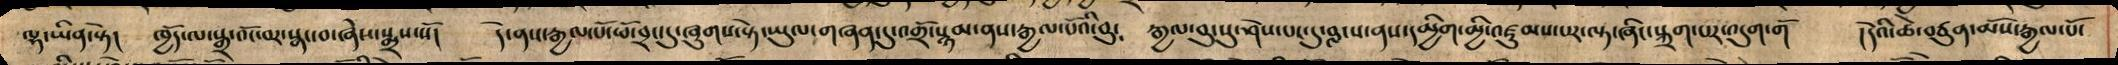ལྷ་ཡིན་སྟེ། ཁྱོད་ལ་སྒྲ་འོང་བར་སྣང་བ་ཞེས་སྨྲས་སོ། དེ་ནས་རྒྱལ་པོ་ཕོ་བྲང་དུ་ཞུགས་སྟེ་ཡུལ་གཞན་དུ་འགྲོ་སྙམ་ནས་རྒྱལ་པོའི་བུ་ རྒྱལ་བུ་སུ་ཤེས་པང་དུ་བླངས་ནས་དམྱིག་མྱི་འཛུམས་པར་ལྟ་ཞིང་སྐྲག་པར་འདུག་གོ །དེའི་ཚེ་བཙུན་མོས་རྒྱལ་པོ་
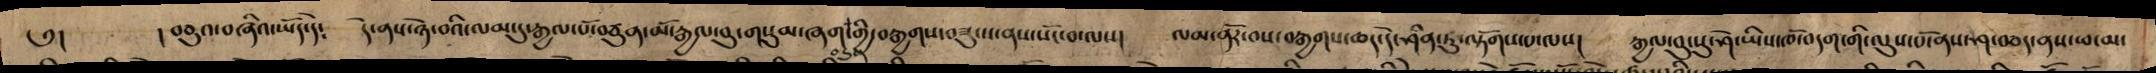༅། །བཅུའ་བཞིའ་ཡོད་དེ༴ དེ་ནས་ཉེ་བའི་ལམ་དུ་རྒྱལ་པོ་བཙུན་མོ་རྒྱལ་བུ་གསུམ་ཞག་གྱི་བརྒྱགས་བཟུངས་ནས་སོང་བ་ལས། ལམ་ནོར་བས་བརྒྱགས་ཆད་དེ་ཤིན་ཏུ་ལྟོགས་པ་ལས། རྒྱལ་བུ་སུ་ཤེ་ཡིས་ཁཽ་བདག་གི་ལུས་པོ་ནས་ཤ་བཅད་ནས་ཕ་མ་
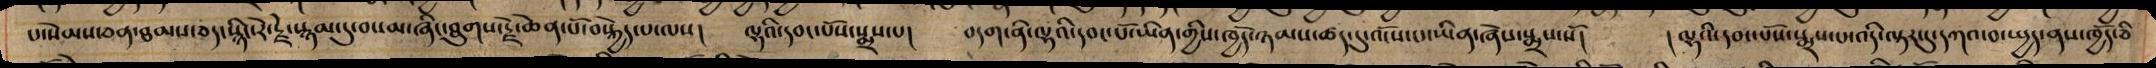པ་སེམས་ཅན་ཐམས་ཅད་སྙིང་རེ་རྗེ་སྙམ་དུ་བསམ་ཞིང་ཐུགས་རྗེ་ཆེན་པོ་བསྐྱེད་པ་ལས། ལྷའི་དབང་པོས་སྨྲས་པ། བདག་ནི་ལྷའི་དབང་པོ་ཡིན་གྱིས་ཁྱེད་ཉམས་ཚད་དུ་འོངས་པ་ཡིན་ཞེས་སྨྲས་སོ། །ལྷའི་དབང་པོས་སྨྲས་པ་འདི་ལྟར་དུ་དཀའ་བ་སྤྱད་ནས་ཁྱོད་ཅི
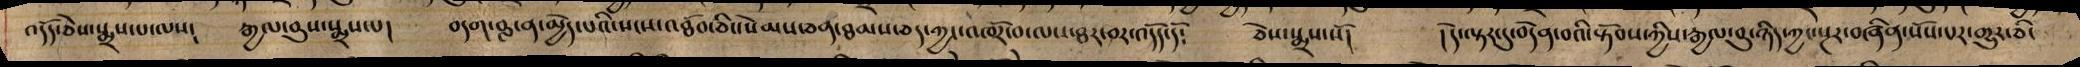འདོད་ཅེས་སྨྲས་པ་ལས༴ རྒྱལ་བུས་སྨྲས་པ། བདག་བླ་ན་མྱེད་པའི་སངས་འཐོབ་ཅིང་སེམས་ཅན་ཐམས་ཅད་ཀྱང་འཁོར་བ་ལས་ཐར་བར་འདོད་དོ༴ ཅེས་སྨྲས་སོ། །དེ་ལྟར་དུ་བདེན་བའི་སྟོབས་ཀྱིས་རྒྱལ་བུ་ཉིད་ཀྱང་སྔར་བཞིན་སོས་པར་གྱུར་ཅིང
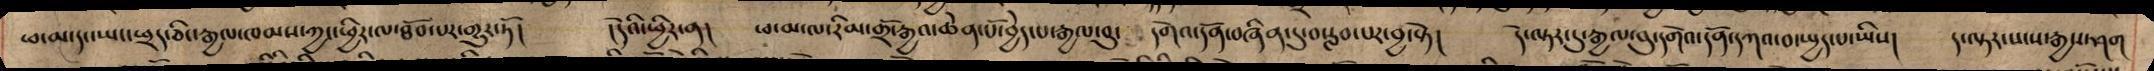ཕ་མ་དང་ཡང་ཕྲད་ཅིང་རྒྱལ་ཁམས་ཀྱང་ཕྱིར་ལ་ཐོབ་པར་གྱུར་ཏོ། །དེའི་ཕིུར་ན། ཕ་མ་ལ་རིམ་གྲོ་རྒྱའ་ཆེན་པོ་བྱེད་པ་རྷྱལ་བུ་ དགེའ་དོན་བཞིན་དུ་བསླབ་པར་བྱ་སྟེ། དེ་ལྟར་དུ་རྒྱལ་བུ་དགེའ་དོན་དཀའ་བ་སྤྱད་པ་ཡིས། ད་ལྟར་སངས་རྒྱས་ཤག
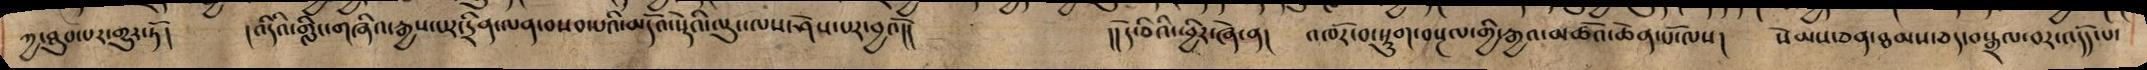ཀྱ་ཐུབ་པར་གྱུར་ཏོ། །འདིའི་གླིང་གཞིའ་རྒྱས་པར་དྲིན་ལན་བསབ་པའི་མདོའ་སྡེའི་ལས་ཤེས་པར་བྱའོ།། །།དེ་ཅིའི་ཕྱིར་ཞེ་ན། འཁོར་བ་སྡུག་བསྔལ་གྱི་རྒྱལ་མཚོའ་ཆེན་པོ་ལས། སེམས་ཅན་ཐམས་ཅད་བསྒྲལ་བར་འདོད་པ་
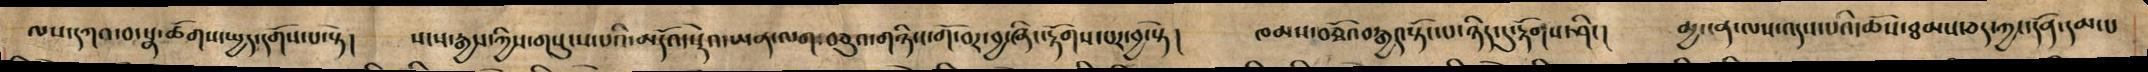ལས་དཀའ་བ་སྣ་ཚོགས་སྤྱད་དགོས་པ་སྟེ། སངས་རྒྱས་ཀྱིས་གསུངས་པའི་མདོའ་སྡེའ་ཡན་ལག་བཅུའ་གཉིས་གོ་བར་བྱ་སྟེ། ཁམས་བཅྭོའ་བརྒྱད་སྟོང་པ་ཉིད་དུ་རྟོགས་ཤིང། མྱ་ངན་ལས་འདས་པའི་ཆོས་ཐམས་ཅད་ཀྱང་དོན་དམ་པ
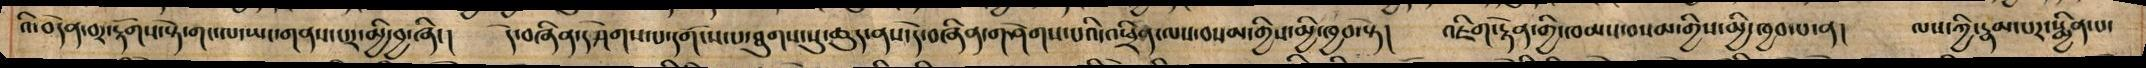འི་བདེན་བར་རྟོགས་སྟེ་གང་ལ་ཡང་གནས་པར་མྱི་བྱ་ཞིང། དེ་བཞིན་དཤེགས་པ་དགོངས་པ་ཐུགས་སུ་ཆུད་ནས་དེ་བཞིན་གཤེགས་པའི་འཕྲིན་ལས་བསམ་གྱིས་མྱི་ཁྱབ་སྟེ། འཇིག་རྟེན་གྱི་ཁམས་བསམ་གྱིས་མྱི་ཁྱབ་པ་ན། ལས་ཀྱི་རྣམ་པར་སྨྱིན་པ་
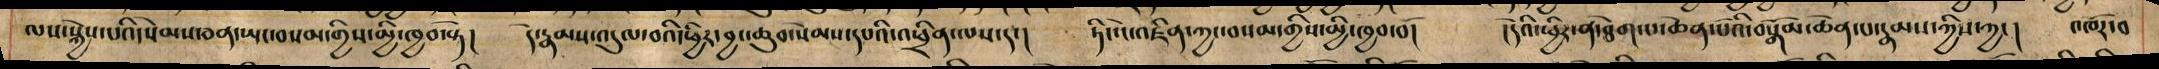ལས་སྐྱེས་པའི་སེམས་ཅན་ཡང་བསམ་གྱིས་མྱི་ཁྱབ་སྟེ། དེ་རྣམས་འདུལ་བའི་ཕྱིར་བྱང་ཆུབ་སེམས་དཔའི་འཕྲིན་ལས་དང། ཏིང་ངེ་འཛིན་ཀྱང་བསམ་གྱིས་མྱི་ཁྱབ་བོ། །དེའི་ཕྱིར་ན་ཐེག་པ་ཆེན་པོའི་བསྒོམ་ཆེན་པ་རྣམས་ཀྱིས་ཀྱང། འཁོར་བ
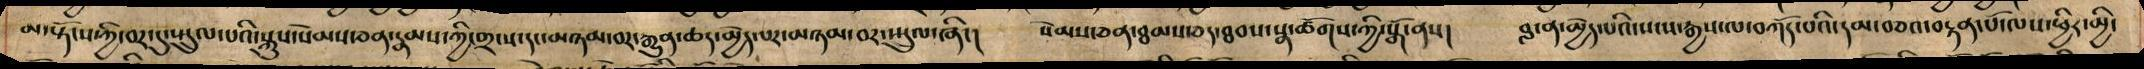མ་སྟོངས་ཀྱི་བར་དུ་སྤྲུལ་པའི་སྐུས་སེམས་ཅན་རྣམས་ཀྱི་གྲངས་དང་མཉམ་བར་རྒྱན་ཆད་མྱེད་པར་མཉམ་བར་སྤྲུལ་ཞིང། སེམས་ཅན་ཐམས་ཅད་ཐབས་སྣ་ཚོགས་ཀྱི་སྒོ་ནས། བླ་ན་མྱེད་པའི་སངས་རྒྱས་ལ་བཀོད་པའི་དམ་བཅའ་བརྟན་པོ་ལས་ཕྱིར་མྱི་
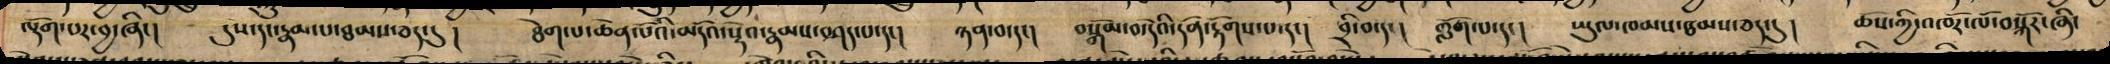ལྡོག་པར་བྱ་ཞིང། དུས་དང་རྣམ་པ་ཐམས་ཅད་དུ ། ཐེག་པ་ཆེན་པོའི་མདོའ་སྡེའ་རྣམས་བཤད་པ་དང། ཉན་བ་དང། བསྒོམ་བ་དེའི་དོན་རྟོགས་པ་དང། བྲི་བ་དང། གློག་པ་དང། ཡུལ་ཁམས་ཐམས་ཅད་དུ། ཆོས་ཀྱི་འཁོར་ལོ་བསྐོར་ཞིང
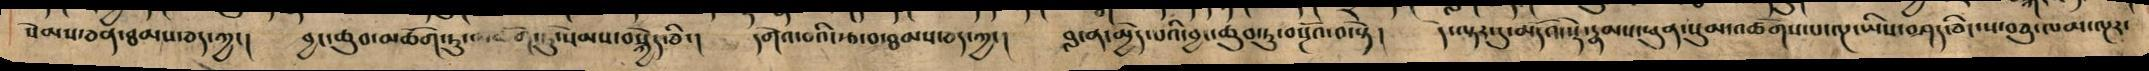སེམས་ཅན་ཐམས་ཅད་ཀྱང། བྱང་ཆུབ་མཆོག་ཏུ་མཆོག་ཏུ་སེམས་བསྐྱེད་ཅིང། དགེའ་བའི་རྩ་བ་ཐམས་ཅད་ཀྱང། བླ་ན་མྱེད་པའི་བྱང་ཆུབ་ཏུ་བསྔོའ་བ་སྟེ། དེ་ལྟར་དུ་མདོའ་སྡེ་རྣམས་ཕུན་སུམ་འཚོགས་པ་ལྔ་ཡིས་བཤད་ཅིང་ས་བཅུ་ལམ་ལྔར་
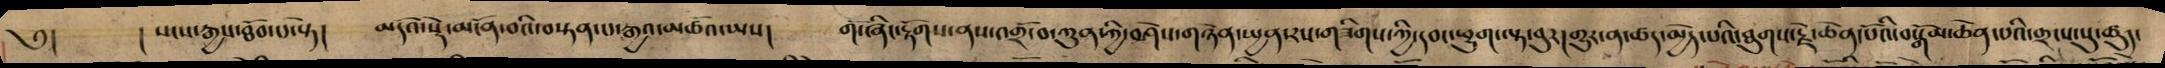༅། ། སངས་རྒྱས་ཐོབ་པ་སྟེ། མདོའ་སྡེ་མངོན་བའི་བསྟན་པ་རྒྱའ་མཚོའ་ཡས། གོ་ཞིང་རྟོགས་ནས་འགྲོ་བ་ཀུན་ཀྱི་བཤེས་གཉེན་སྤྱན་རས་གཟིགས་ཀྱི་དབང་ཕྱུག་ལྟ་བུར་གྱུར་ན་ཚད་མྱེད་པའི་ཐུགས་རྗེ་ཆེན་པོའི་བསྒོམ་ཆེན་པའི་གྲངས་སུ་ཚུད་
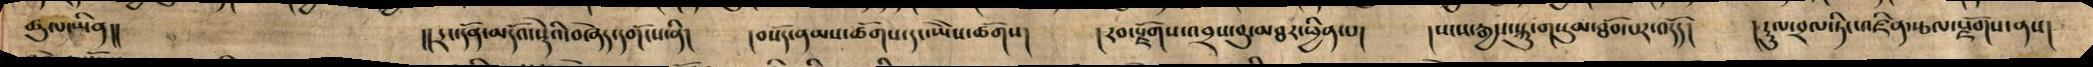ཚུལ་ཡིན།། །།དྲང་དོན་མདོའ་སྡེའི་བཞེད་དགོངས་ནི། །བསོད་ནམས་ཚོགས་དང་ཡཻ་ཚོགས། །རབ་སྫོགས་འབྲས་བུ་མཐར་ཕྱིན་པ། །སངས་རྒྱས་སྐུ་གསུམ་ཐོབ་པར་འདོད། །རྡུལ་བྲལ་ཏིང་འཛིན་རྩལ་སྫོགས་ནས།
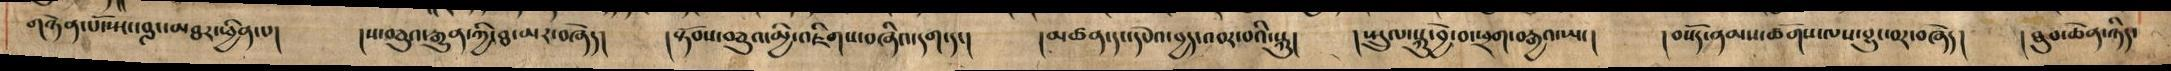གཉེན་པོ་སྤངས་བླང་མཐར་ཕྱིན་པ། །ས་བཅུའ་རྒྱུན་ཀྱི་ཐ མར་བཞེད། །སྟོབས་བཅུའ་མྱི་འཇིགས་བཞིའ་དག་དང། །མཚན་དང་དཔེའ་བྱད་འབར་བའི་སྐུ། །སྤྲུལ་སྐུ་བྱེ་བ་ཕྲག་བརྒྱའ་ཡང། །བསོད་ནམས་ཚོགས་ལས་བྱུང་བར་བཞེད། །ཐུབ་ཆེན་ཉིད་
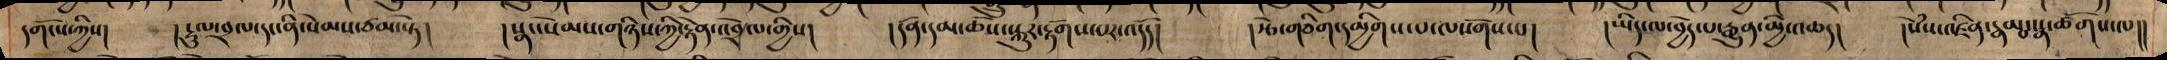དགོངས་ཀྱིས། །རྡུལ་བྲལ་དང་ནི་སེམས་ཙམ་སྟེ། །སྣང་སེམས་གཉིས་ཀྱི་རྟེན་འབྲེལ་གྱིས། །དོན་དམ་ཆོས་སྐུར་རྟོགས་པར་འདོད། །རྩེ་གཅིག་དམྱིགས་པ་ལསོགས་པ། །ཡིད་ལ་བྱེད་པ་རྒྱུན་མྱི་འཆད། །སེཾས་འཛིན་རྣམ་སྣ་ཚོགས་པ།།
